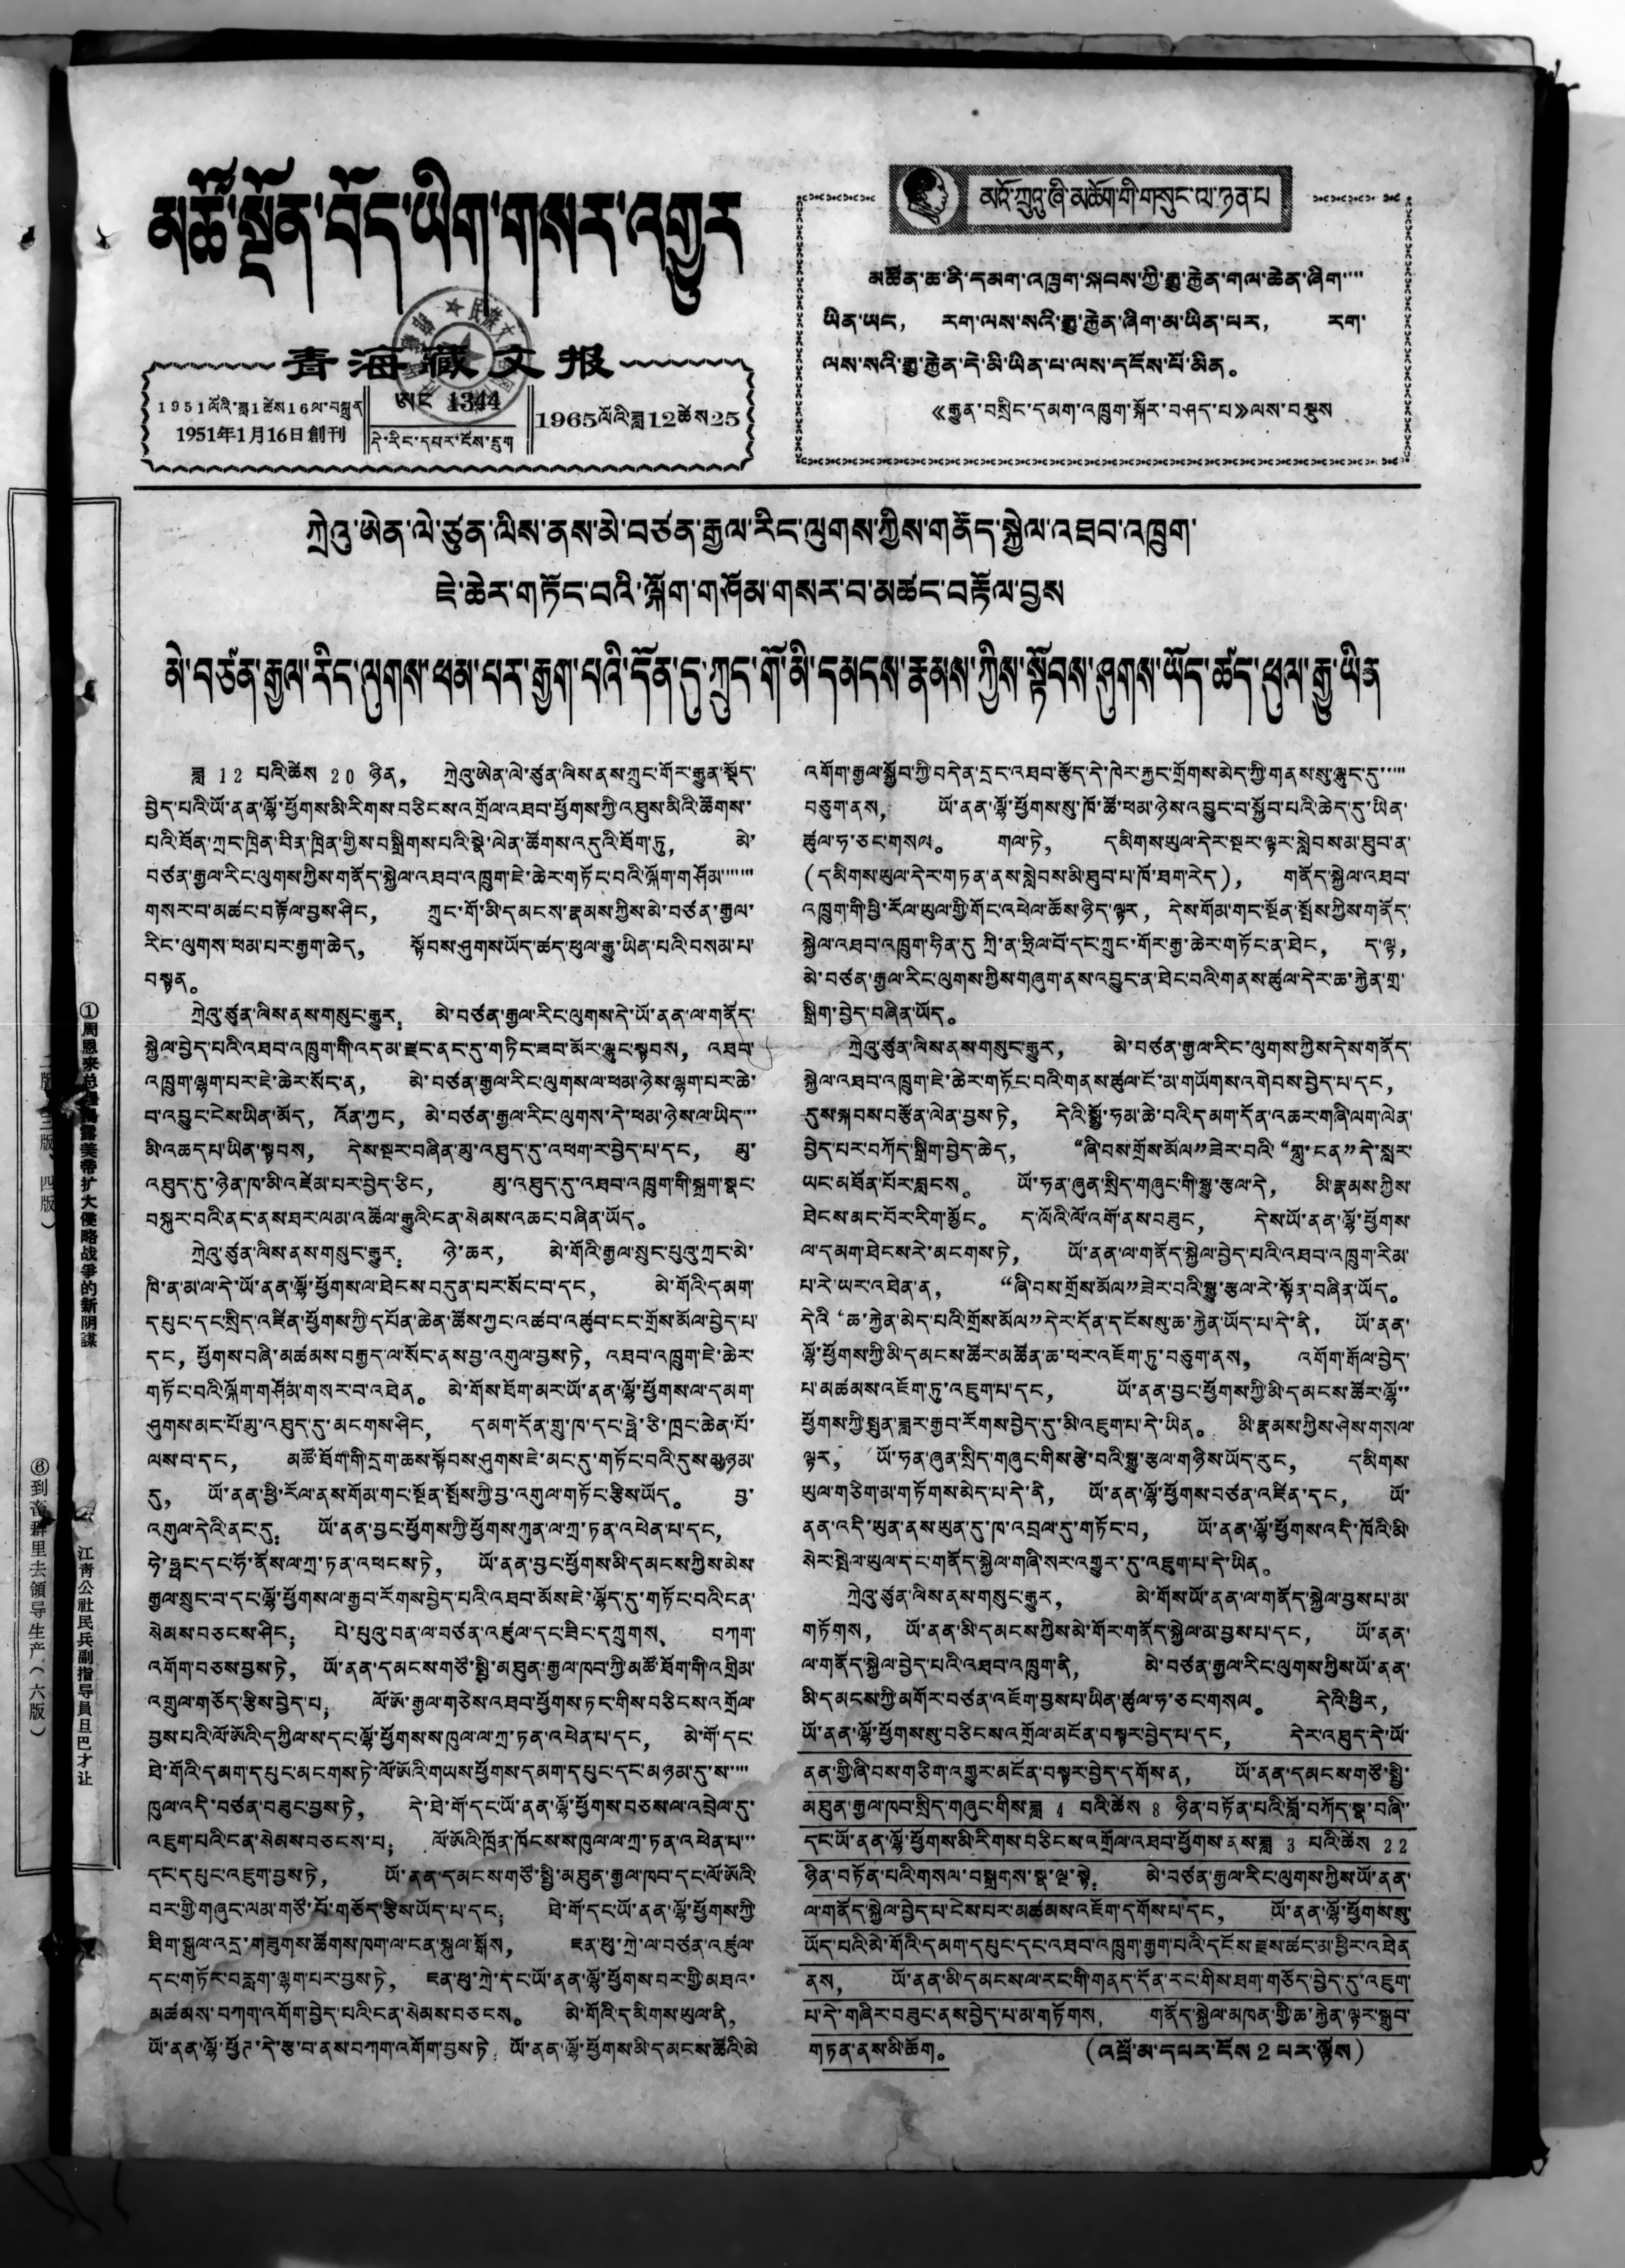མཚོ་སྔོན་བོད་ཡིག་གསར་འགྱུར
青海藏文报
1951ལོའི་ཟླ1ཚེས16ལ་བསྐྲུན
1951年1月16日創刊
ཨང 1344
དེ་རིང་དཔར་ངོས་དྲུག
1965ལོའི་ཟླ12ཚེས25
མའོ་ཀྲུ་ཞིན་ཡོ་གི་གསུང་ལ་ཉན་པ།
མཚོན་ཆ་ནི་དམག་འཁྲུག་སྐབས་ཀྱི་ཟྒྱ་རྐྱེན་གལ་ཆེན་ཞིག་་་་
ཡིན་ཡང， རག་ལས་སའི་སྒྱ་རྐྱེན་ཞིག་མུ་ཡིན་པར， རག་
ལས་སའི་ཟླྱ་རྐྱེན་དེ་མི་ཡིན་པ་ལས་དངོས་པོ་མིན。
《རྒྱུན་བསྲིང་དམག་འཁྲུག་སྐོར་བཤད་པ》ལས་བསྡུས
①周恩来总理揭露美帝扩大侵略战爭的新阴謀
二版、三版、四版）
江靑公社民兵副指导員旦巴才让
⑥到畜群里去領导生产（六版）
ཀྲེའུ་ཨེན་ལེ་ཙུན་ལིས་ནས་མེ་བཙན་རྒྱལ་རིང་ལུགས་ཀྱིས་གནོད་སྐྱེལ་འཐབ་འཁྲུག་
ཇེ་ཆེར་གཏོང་བའི་ལྐོག་གཤོམ་གསར་བ་མཚང་བརྟོལ་བྱས
མེ་བཙན་རྒྱལ་རིང་ལུགས་ཕན་པར་རྒྱག་པའི་དོན་ཏུ་ཀྲུང་གོ་མི་དམངས་རྣམས་ཀྱིས་སྟོབས་ཞུགས་ཡོད་ཚད་ཕུལ་རྒྱུ་ཡིན
ཟླ 12 པའི་ཚེས 20 ཉིན， ཀྲེའུ་ཨེན་ལེ་ཙུན་ལིས་ནས་ཀྲུང་གོར་རྒྱུན་སྡོད་
བྱེད་པའི་ཡོ་ནན་ལྷོ་ཕྱོགས་མི་རིགས་བཅིངས་འགྲོལ་འཐབ་ཕྱོགས་ཀྱི་འཐུས་མིའི་ཚོགས་་
པའི་ཐོན་ཀྲང་ཁྲིན་བིན་ཁྲིན་གྱིས་བསྒྲིགས་པའི་སྣེ་ལེན་ཚོགས་འདུའི་ཐོག་ཏུ， མེ་
བཙན་རྒྱལ་རིང་ལུགས་ཀྱིས་གནོད་སྐྱེལ་འཐབ་འཁྲུག་ཇེ་ཆེར་གཏོང་བའི་ལྐོག་གཤོམ་་་་་་་
གསར་བ་མཚང་བརྟོལ་བྱས་ཤིང， ཀྲུང་གོ་མི་དམངས་རྣམས་ཀྱིས་མེ་བཙན་རྒྱལ་
རིང་ལུགས་ཕམ་པར་རྒྱག་ཆེད， སྟོབས་ཤུགས་ཡོད་ཚད་ཕུལ་རྒྱུ་ཡིན་པའི་བསམ་པ་
བསྟན。
ཀྲེའུ་ཙུན་ལིས་ནས་གསུང་རྒྱུར： མེ་བཙན་རྒྱལ་རིང་ལུགས་དེ་ཡོ་ནན་ལ་གནོད་
སྐྱེལ་བྱེད་པའི་འཐབ་འཁྲུག་གི་འདམ་རྫུང་ནད་དུ་གཏིང་ཟབ་མོར་ལྷུང་སྟབས， འཐབ་
འཁྲུག་ལྷག་པར་ཇེ་ཆེར་སོང་ན， མེ་བཙན་རྒྱལ་རིང་ལུགས་ལ་ཕམ་ཉེས་ལྷག་པར་ཆེ་
བ་འབྱུང་ངེས་ཡིན་མོད， འོན་ཀྱང， མེ་བཙན་རྒྱལ་རིང་ལུགས་དེ་ཕམ་ཉེས་ལ་ཡིད་་་
མི་འཆདཔ་ཡིན་སྟབས， དེས་སྔར་བཞིན་མུ་འཐུད་དུ་འཕག་ར་བྱེད་པ་དང， མུ་
འཐུད་དུ་ཉེན་ཁ་མི་འཛེམ་པར་བྱེད་ཅིང， མུ་འཐུད་དུ་འཐབ་འཁྲུག་གི་སྐྲག་སྣང་
བསྐུར་བའི་ནང་ནས་ཐར་ལམ་འཚོལ་རྒྱུའི་ངན་སེམས་འཆང་བཞིན་ཡོད。
ཀྲེའུ་ཙུན་ལིས་ནས་གསུང་རྒྱུར： ཉེ་ཆར， མེ་གོའི་རྒྱལ་སྲུང་པུའུ་ཀྲང་མེ་
ཁི་ན་མ་ལ་དེ་ཡོ་ནན་ལྷོ་ཕྱོགས་ལ་ཐེངས་བདུན་པར་སོང་བ་དང， མེ་གོའི་དམག་
དཔུང་དང་སྲིད་འཛིན་ཕྱོགས་ཀྱི་དཔོན་ཆེན་ཚོས་ཀྱང་འཚབ་འཚུབ་ངང་གྲོས་མོལ་བྱེད་པ་་
དང，ཕྱོགས་བཞི་མཚམས་བརྒྱད་ལ་སོང་ནས་བྱ་འགུལ་བྱས་ཏེ， འཐབ་འཁྲུག་ཇེ་ཆེར་
གཏོང་བའི་ལྐོག་གཤོམ་གསར་བ་འཐེན。 མེ་གོས་ཐོག་མར་ཡོ་ནན་ལྷོ་ཕྱོགས་ལ་དམག་
ཤུགས་མང་པོ་མུ་འཐུད་དུ་མངགས་ཤིང， དམག་དོན་གྲུ་ཁ་དང་ཧྥེ་ཅི་ཁྲང་ཆེན་པོ་
ལས་པ་དང， མཚོ་ཐོག་གི་དྲག་ཆས་སྟོབས་ཤུགས་ཇེ་མང་དུ་གཏོང་བའི་དུས་མཉམ་
དུ， ཡོ་ནན་ཕྱི་རོལ་ནས་གོམ་གང་སྔོན་སྤོས་ཀྱི་བྱ་འགུལ་གཏོང་རྩིས་ཡོད。 བྱ་
འགུལ་དེའི་ནང་དུ： ཡོ་ནན་བྱང་ཕྱོགས་ཀྱི་ཕྱོགས་ཀུན་ལ་ཀྲ་ཏན་འཕེན་པ་དང，
ཧེ་ཧྥང་དང་ཧོ་ནོས་ལ་ཀྲ་ཏན་འཕངས་ཏེ， ཡོ་ནན་བྱང་ཕྱོགས་མི་དམངས་ཀྱིས་མེས་
རྒྱལ་སྲུང་བ་དང་ལྷོ་ཕྱོགས་ལ་རྒྱབ་རོགས་བྱེད་པའི་འཐབ་མོས་ཇེ་ལྷོད་དུ་གཏོང་བའི་ངན་
སེམས་བཅངས་ཤིང； པེ་པུའུ་བན་ལ་བཙན་འཛུལ་དང་ཟིང་དཀྲུགས、 བཀག་
འགོག་བཅས་བྱས་ཏེ， ཡོ་ནན་དམངས་གཙོ་སྤྱི་མཐུན་རྒྱལ་ཁབ་ཀྱི་མཚོ་ཐོག་གི་འགྲིམ་
འགྲུལ་གཅོད་རྩིས་བྱེད་པ； ལོ་ཨོ་རྒྱལ་གཅེས་འཐབ་ཕྱོགས་ཏང་གིས་བཅིངས་འགྲོལ་
བྱས་པའི་ལོ་ཨོའི་དཀྱིལ་ས་དང་ལྷོ་ཕྱོགས་ས་ཁུལ་ལ་ཀྲ་ཏན་འཕེན་པ་དང， མེ་གོ་དང་
ཐེ་གོའི་དམག་དཔུང་མངགས་ཏེ་ལོ་ཨོའི་གཡས་ཕྱོགས་དམག་དཔུང་དང་མཉམ་དུ་ས་་་་་
ཁུལ་འདི་བཙན་བཟུང་བྱས་ཏེ， དེ་ཐེ་གོ་དང་ཡོ་ནན་ལྷོ་ཕྱོགས་བཅས་ལ་འབྲེལ་དུ་
འཇུག་པའི་ངན་སེམས་བཅངས་པ； ལོ་ཨོའི་ཁྲོན་ཁོངས་ས་ཁུལ་ལ་ཀྲ་ཏན་འཕེན་པ་་་
དང་དཔུང་འཇུག་བྱས་ཏེ， ཡོ་ནན་དམངས་གཙོ་སྤྱི་མཐུན་རྒྱལ་ཁབ་དང་ལོ་ཨོའི་
བར་གྱི་གཞུང་ལམ་གཙོ་བོ་གཅོད་རྩིས་ཡོད་པ་དང； ཐེ་གོ་དང་ཡོ་ནན་ལྷོ་ཕྱོགས་ཀྱི་
ཐིག་སྐུལ་འདྲ་གཟུགས་ཚོགས་ཁག་ལ་ངན་སྐུལ་སྒོས， རན་ཕུ་ཀྲེ་ལ་བཙན་འཛུལ་
དང་གཏོང་བརླག་ལྷག་པར་བྱས་ཏེ， ཇན་ཕུ་ཀྲེ་དང་ཡོ་ནན་ལྷོ་ཕྱོགས་བར་གྱི་མཐའ་
མཚམས་བཀག་འགོག་བྱེད་པའི་ངན་སེམས་བཅངས。 མེ་གོའི་དམིགས་ཡུལ་ནི་
ཡོ་ནན་ལྷོ་ཕྱོཊ་དེ་རྩ་བ་ནས་བཀག་འགོག་བྱས་ཏེ： ཡོ་ནན་ལྷོ་ཕྱོགས་མི་དམངས་ཚོའི་མེ
འགོག་རྒྱལ་སྐྱོབ་ཀྱི་བདེན་དྲང་འཐབ་རྩོད་དེ་ཁེར་རྐྱང་གྲོགས་མེད་ཀྱི་གནས་སུ་ལྷུད་དུ་་་་་
བཅུག་ནས， ཡོ་ནན་ལྷོ་ཕྱོགས་སུ་ཁོ་ཚོ་ཕམ་ཉེས་འབྱུང་བ་སྐྱོབ་པའི་ཆེད་དུ་ཡིན་
ཚུལ་ཧ་ཅང་གསལ。 གལ་ཏེ， དམིགས་ཡུལ་དེར་སྔར་ལྟར་སླེབས་མ་ཐུབ་ན་
(དམིགས་ཡུལ་དེར་གཏན་ནས་སླེབས་མི་ཐུབ་པ་ཁོ་ཐག་རེད)， གནོད་སྐྱེལ་འཐབ་
འཁྲུག་གི་ཕྱི་རོལ་ཡུལ་གྱི་གོང་འཕེལ་ཆོས་ཉིད་ལྟར， དེས་གོམ་གང་སྔོན་སྤོས་ཀྱིས་གནོད་
སྐྱེལ་འཐབ་འཁྲུག་ཧིན་དུ ཀྲི་ན་ཧྲིལ་བོ་དང་ཀྲུང་གོར་རྒྱ་ཆེར་གཏོང་ན་ཐེང， ད་ལྟ，
མེ་བཙན་རྒྱལ་རིང་ལུགས་ཀྱིས་གཞུག་ནས་འབྱུང་ན་ཐེང་བའི་གནས་ཚུལ་དེར་ཆ་རྐྱེན་གྲ་
སྒྲིག་བྱེད་བཞིན་ཡོད。
ཀྲེའུ་ཙུན་ལིས་ནས་གསུང་རྒྱུར， མེ་བཙན་རྒྱལ་རིང་ལུགས་ཀྱིས་དེས་གནོད་
སྐྱེལ་འཐབ་འཁྲུག་ཇེ་ཆེར་གཏོང་བའི་གནས་ཚུལ་ངོ་མ་གཡོགས་འགེབས་བྱེད་པ་དང，
དུས་སྐབས་བརྩོན་ལེན་བྱས་ཏེ， དེའི་སྨྱོ་ཧམ་ཆེ་བའི་དམག་དོན་འཆར་གཞི་ལག་ལེན་
བྱེད་པར་བཀོད་སྒྲིག་བྱེད་ཆེད， “ཞི་བས་གྲོས་མོལ”ཟེར་བའི་“གླུ་ངན”དེ་སླར་
ཡང་མཐོན་པོར་བླངས。 ཡོ་ཧན་ཞུན་སྲིད་གཞུང་གི་སྒྱུ་རྩལ་དེ， མི་རྣམས་ཀྱིས་
ཐེངས་མང་པོར་རིག་མྱོང。 ད་ལོའི་ལོ་འགོ་ནས་བཟུང， དེས་ཡོ་ནན་ལྷོ་ཕྱོགས་
ལ་དམག་ཐེངས་རེ་མངགས་ཏེ， ཡོ་ནན་ལ་གནོད་སྐྱེལ་བྱེད་པའི་འཐབ་འཁྲུག་རིམ་
པ་རེ་ཡར་འཐེན་ན， “ཞི་བས་གྲོས་མོལ”ཟེར་བའི་སྒྱུ་རྩལ་རེ་སྟོན་བཞིན་ཡོད。
དེའི“ཆ་རྐྱེན་མེད་པའི་གྲོས་མོལ”དེར་དོན་དངོས་སུ་ཆ་རྐྱེན་ཡོད་པ་དེ་ནི， ཡོ་ནན་
ལྷོ་ཕྱོགས་ཀྱི་མི་དམངས་ཚོར་མཚོན་ཆ་ཕར་འཇོག་ཏུ་བཅུག་ནས， འགོག་རྒོལ་བྱེད་
པ་མཚམས་འཇོག་ཏུ་འཇུག་པ་དང， ཡོ་ནན་བྱང་ཕྱོགས་ཀྱི་མི་དམངས་ཚོར་ལྷོ་་
ཕྱོགས་ཀྱི་སྤུན་ཟླར་རྒྱབ་རོགས་བྱེད་དུ་མི་འཇུག་པ་དེ་ཡིན。 མི་རྣམས་ཀྱིས་ཤེས་གསལ་
ལྟར， ཡོ་ཧན་ཞུན་སྲིད་གཞུང་གིས་རྩེ་བའི་སྒྱུ་རྩལ་གཉིས་ཡོད་རུང， དམིགས་
ཡུལ་གཅིག་མ་གཏོགས་མེད་པ་དེ་ནི， ཡོ་ནན་ལྷོ་ཕྱོགས་བཙན་འཛིན་དང， ཡོ་
ནན་འདི་ཡུན་ནས་ཡུན་དུ་ཁ་འབྲལ་དུ་གཏོང་བ， ཡོ་ནན་ལྷོ་ཕྱོགས་འདི་ཁོའི་མི་
སེར་སྤེལ་ཡུལ་དང་གནོད་སྐྱེལ་གཞི་སར་འགྱུར་དུ་འཇུག་པ་དེ་ཡིན。
ཀྲེའུ་ཙུན་ལིས་ནས་གསུང་རྒྱུར， མེ་གོས་ཡོ་ནན་ལ་གནོད་སྐྱེལ་བྱས་པ་མ་
གཏོགས， ཡོ་ནན་མི་དམངས་ཀྱིས་མེ་གོར་གནོད་སྐྱེལ་མ་བྱས་པ་དང， ཡོ་ནན་
ལ་གནོད་སྐྱེལ་བྱེད་པའི་འཐབ་འཁྲུག་ནི， མེ་བཙན་རྒྱལ་རིང་ལུགས་ཀྱིས་ཡོ་ནན་
མི་དམངས་ཀྱི་མགོར་བཙན་འཇོག་བྱས་པ་ཡིན་ཚུལ་ཧ་ཅང་གསལ。 དེའི་ཕྱིར，
ཡོ་ནན་ལྷོ་ཕྱོགས་སུ་བཅིངས་འགྲོལ་མངོན་བསྟར་བྱེད་པ་དང， དེར་འཐུད་དེ་ཡོ་
ནན་གྱི་ཞི་བས་གཅིག་འགྱུར་མངོན་བསྟར་བྱེད་དགོས་ན， ཡོ་ནན་དམངས་གཙོ་སྤྱི་
མཐུན་རྒྱལ་ཁབ་སྲིད་གཞུང་གིས་ཟླ 4 བའི་ཚེས 8 ཉིན་བཏོན་པའི་བློ་བཀོད་སྣ་བཞི་་
དང་ཡོ་ནན་ལྷོ་ཕྱོགས་མི་རིགས་བཅིངས་འགྲོལ་འཐབ་ཕྱོགས་ནས་ཟླ 3 པའི་ཚེས 22
ཉིན་བཏོན་པའི་གསལ་བསྒྲགས་སྣ་ལྔ་སྟེ： མེ་བཙན་རྒྱལ་རིང་ལུགས་ཀྱིས་ཡོ་ནན་
ལ་གནོད་སྐྱེལ་བྱེད་པ་ངེས་པར་མཚམས་འཇོག་དགོས་པ་དང， ཡོ་ནན་ལྷོ་ཕྱོགས་སུ་
ཡོད་པའི་མེ་གོའི་དམག་དཔུང་དང་འཐབ་འཁྲུག་རྒྱག་པའི་དངོས་རྫས་ཚང་མ་ཕྱིར་འཐེན
ནས， ཡོ་ནན་མི་དམངས་ལ་རང་གི་གནད་དོན་རང་གིས་ཐག་གཅོད་བྱེད་དུ་འཇུག་
པ་དེ་གཞིར་བཟུང་ནས་བྱེད་པ་མ་གཏོགས， གནོད་སྐྱེལ་མཁན་གྱི་ཆ་རྐྱེན་ལྟར་སྒྲུབ་
གཏན་ནས་མི་ཚོག。
(འཕྲོ་མ་དཔར་ངོས་ 2 པར་ལྷོས)
